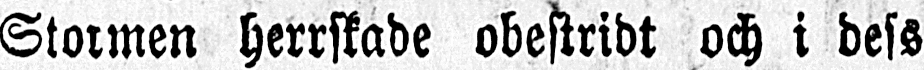Stormen herrskade obestridt och i dess
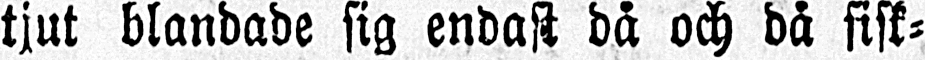tjut blandade sig endast då och då fisk-
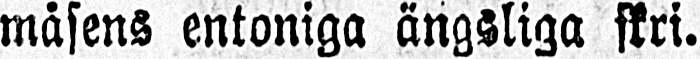måsens entoniga ängsliga skri.
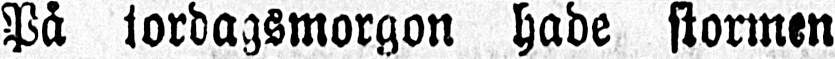På tordagsmorgon hade stormen
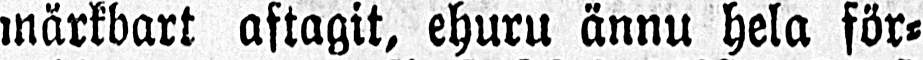märkbart aftagit, ehuru ännu hela för-
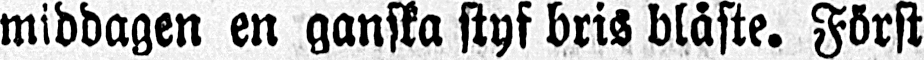middagen en ganska styf bris blåste. Först
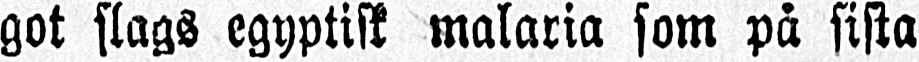got slags egyptisk malaria som på sista
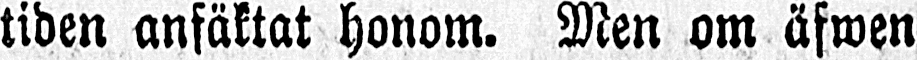tiden anfäktat honom. Men om äfwen
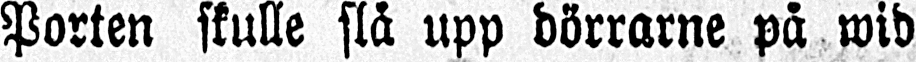Porten skulle slå upp dörrarne på wid
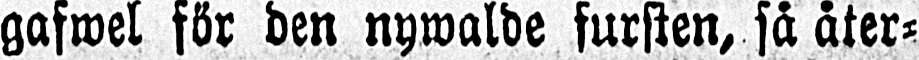gafwel för den nywalde fursten, så åter-
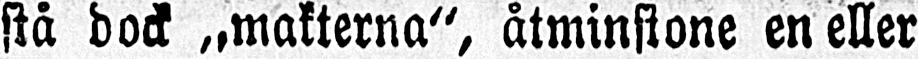stå dock »makterna", åtminstone en eller
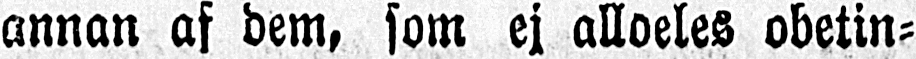annan af dem, som ej alldeles obetin-
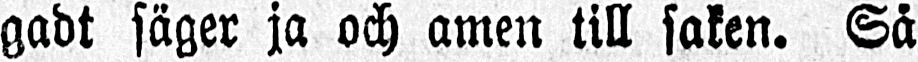gadt säger ja och amen till saken. Så
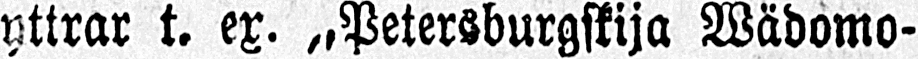yttrar t. ex. „Petersburgskija Wädomo-
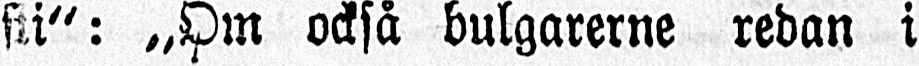sti": „Om också bulgarerne redan i
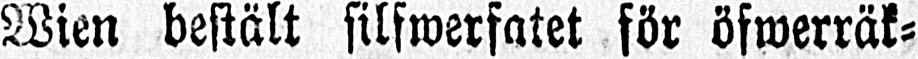Wien bestält silfwerfatet för öfmerräk-
